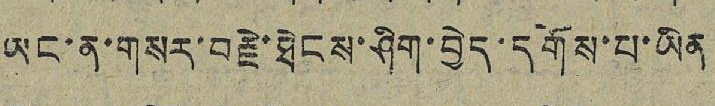ཡང་ན་གསར་བརྗེ་ཐེངས་ཤིག་བྱེད་དགོས་པ་ཡིན
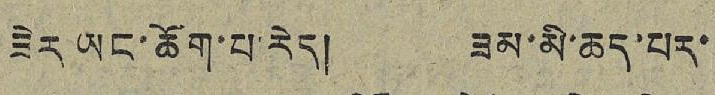ཟེར ཡང་ཆོག་པ་རེད། ཟམ་མི་ཆད་པར་
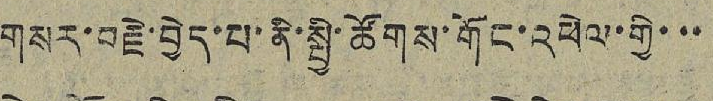གསར་བརྗེ་བྱེད་པ་ནི་སྤྱི་ཚོགས་གོང་འཕེལ་གྱི་་་
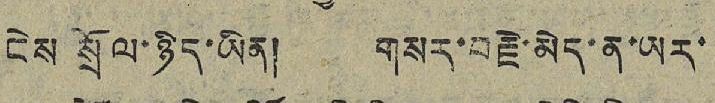ངེས སྲོལ་ཉིད་ཡིན། གསར་བརྗེ་མེད་ན་ཡར་
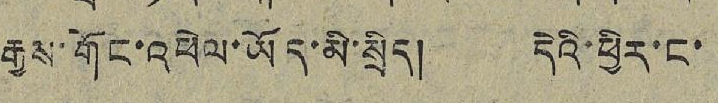རྒྱས་གོང་འཕེལ་ཡོད་མི་སྲིད། དེའི་ཕྱིར་ང་
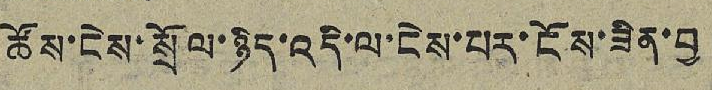ཚོས་ངེས་སྲོལ་ཉིད་འདི་ལ་ངེས་པར་ངོས་ཟིན་བྱ
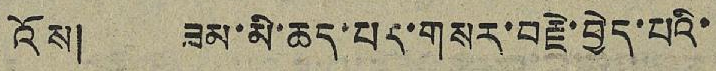འོས། ཟམ་མི་ཆད་པར་གསར་བརྗེ་བྱེད་པའི་
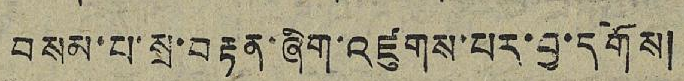བསམ་པ་སྲ་བརྟན་ཞིག་འཛུགས་པར་བྱ་དགོས།
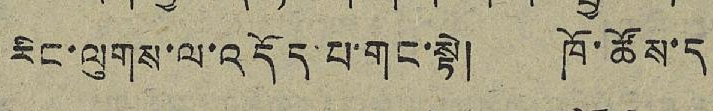རིང་ལུགས་ལ་འདོད་པ་གང་སྟེ། ཁོ་ཚོས་ད
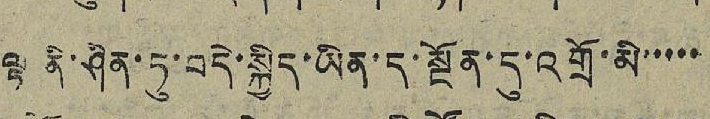ལྟ ནི་ཤིན་ཏུ་བདེ་སྐྱིད་ཡིན་ད་སྔོན་དུ་འགྲོ་མི་་་་་
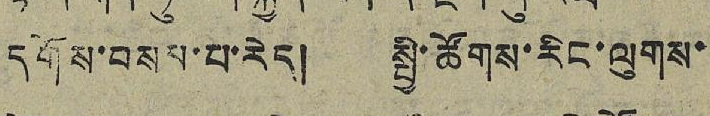དགོས་བསམ་པ་རེད། སྤྱི་ཚོགས་རིང་ལུགས་
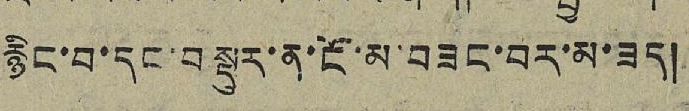རྙིང་བ་དང་བསྡུར་ན་ངོ་མ་བཟང་བར་མ་ཟད།
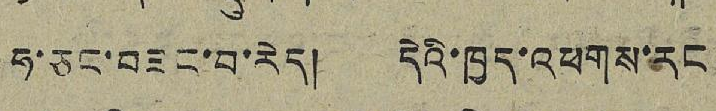ཧ་ཅང་བཟང་བ་རེད། དེའི་ཁྱད་འཕགས་རང
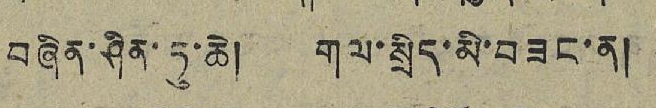བཞིན་ཤིན་ཏུ་ཆེ། གལ་སྲིད་མི་བཟང་ན།
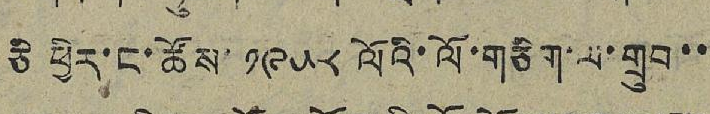ཅི ཕྱིར་ང་ཚོས་ ༡༩༥༨ ལོའི་ལོ་གཅིག་ལ་གྲུབ་་
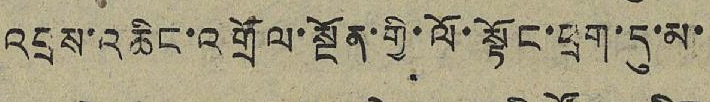འབྲས་འཆིང་འགྲོལ་སྔོན་གྱི་ལོ་སྟོང་ཕྲག་དུ་མ་
